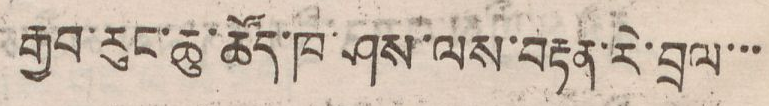རྒྱབ་རུང་ཆུ་ཚོད་ཁ་ཤས་ལས་བརྟན་རེ་བྲལ་་་
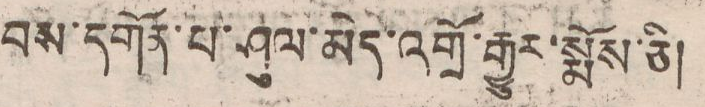བས་དགོན་པ་ཤུལ་མེད་འགྲོ་རྒྱུར་སྨོས་ཅི།
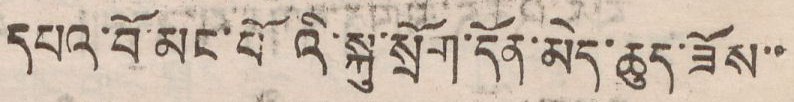དཔའ་བོ་མང་པོའི་སྐུ་སྲོག་དོན་མེད་ཆུད་ཟོས་་
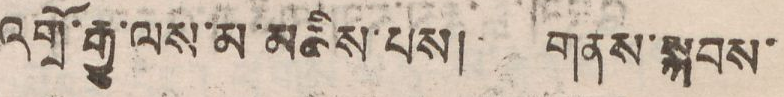འགྲོ་རྒྱུ་ལས་མ་མཆིས་པས། གནས་སྐབས་
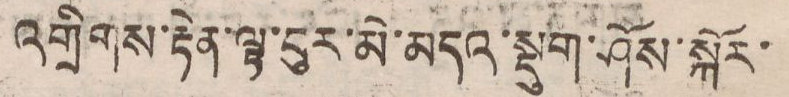འགྲིགས་རྟེན་ལྟ་བུར་མེ་མདའ་སྡུག་ཤོས་སྐོར་
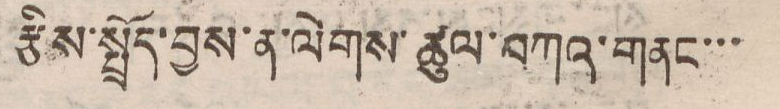རྩིས་སྤྲོད་བྱས་ན་ལེགས་ཚུལ་བཀའ་གནང་་་
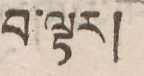བ་ལྟར།
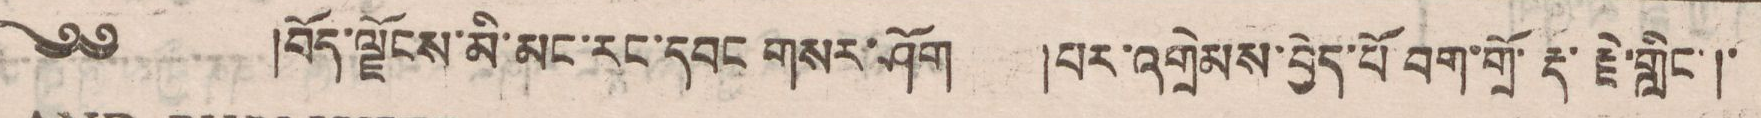༄༅ །བོད་ལྗོངས་མི་མང་རང་དབང གསར་ཤོག །པར་འགྲེམས་བྱེད་པོ བག་གྲོ་རྡོ་རྗེ་གླིང་།
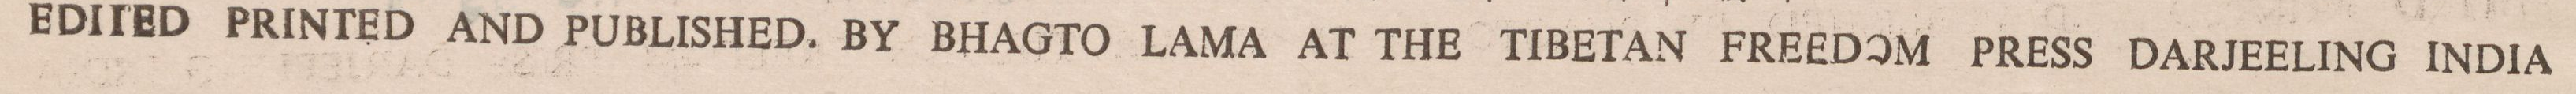EDITED PRINTED AND PUBLISHED. BY BHAGTO LAMA AT THE TIBETA FREEDOM PRESS DARJEELING INDIA
